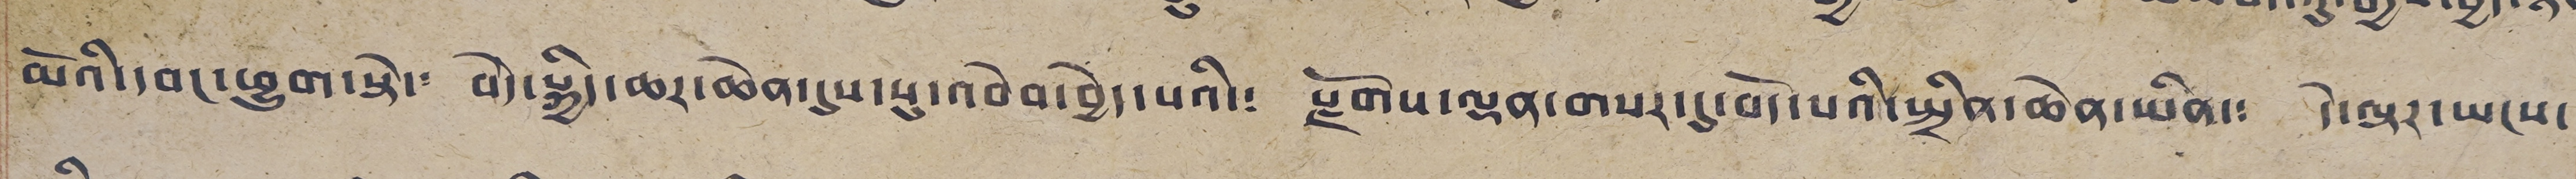མོའི་དབང་ཕྱུག་སྟེ་༴ བདེ་སྐྱིད་ཆར་ཆེན་དུས་སུ་འབེབ་བྱེད་པའི་༴ རྫོགས་ལྡན་གསར་དུ་བོད་པའི་སྤྱིན་ཆེན་ཡིན་༴ དེ་ལྟར་ཡངས་
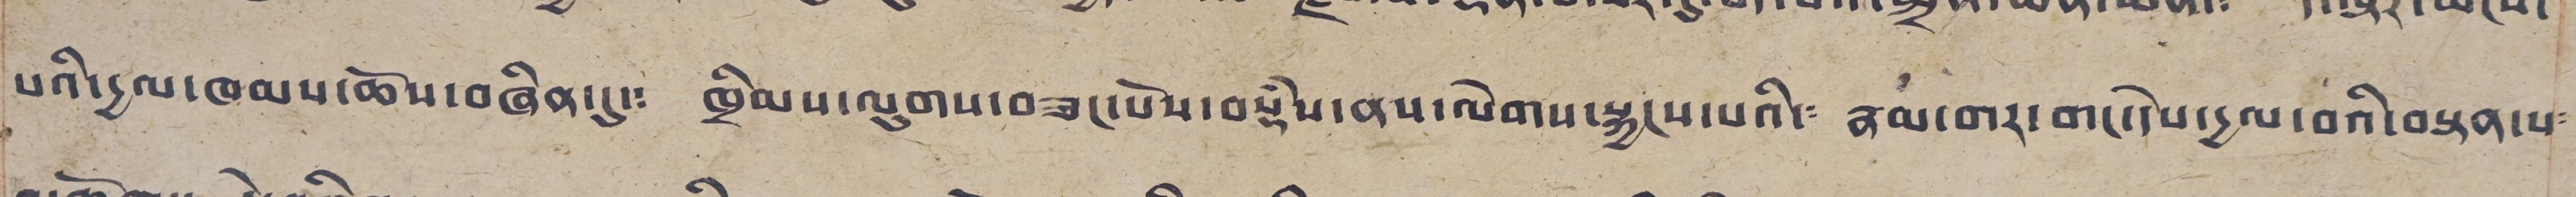པའི་དྱལ་ཁམས་ཆོས་བཞིན་དུ་༴ ཁྲིམས་ལུགས་བཟང་པོས་བསྡཾས་ནས་ལེགས་སྐྱངས་པའི་༴ རྣམ་གར་གང་དེས་དྱལ་བའི་བསྟན་པ༴
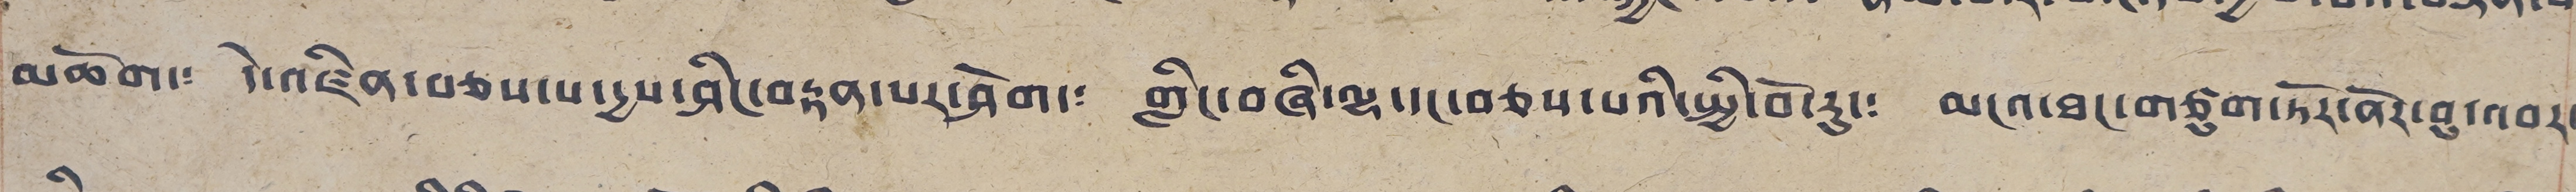མཆོག་༴ དེ་འཛིན་བཅས་པ་དྱས་ཤིང་བརྟན་པར་ཤོག་༴ གླིང་བཞི་ལྷ་དང་བཅས་པའི་སྤྱི་བོ་རུ་༴ མངའ་ཐང་གཙུག་ཏོར་ནོར་བུ་འབར་
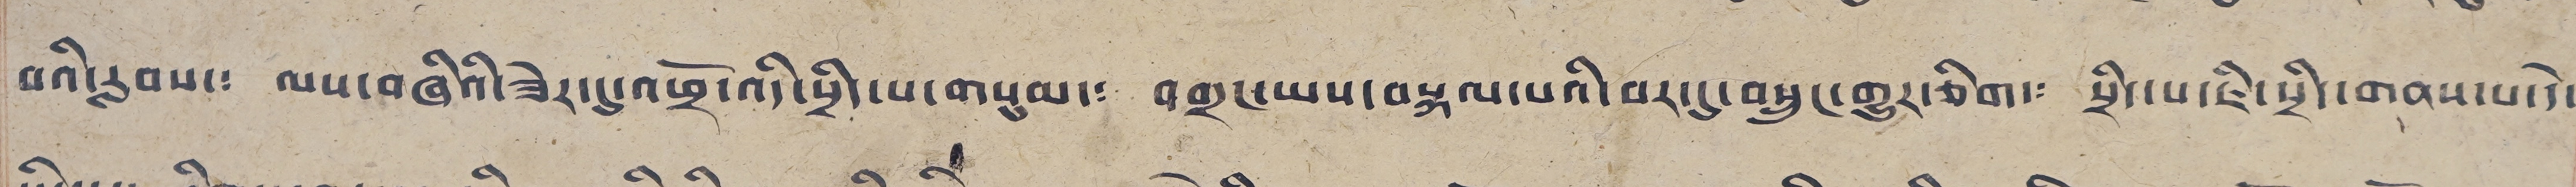བའི་རླབས་༴ ལས་བཞིའི་ཟེར་དུ་འཕྲོ་འདི་སྲིད་པ་གསུམ་༴ བགྲང་ཡས་བསྐལ་པའི་བར་དུ་བསྲུང་གྱུར་ཅིག་༴ སྲིད་པ་ཇི་སྲིད་གནས་པ་དེ་
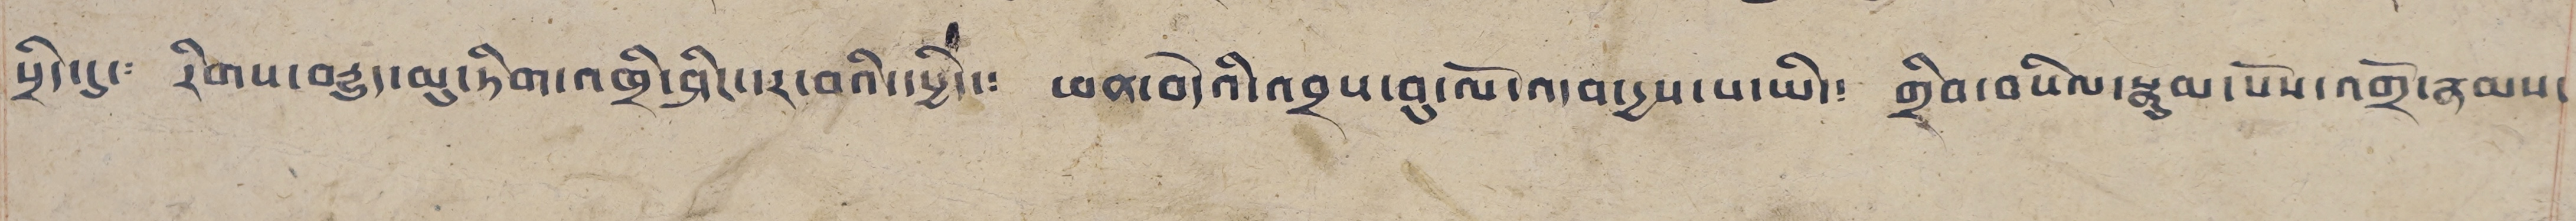སྲིད་དུ་༴ རིགས་བརྒྱུད་མུ་ཏིག་འཁྲི་ཤིང་ར་བའི་དཔྱིད་༴ ཕན་བདེའི་འབྲས་བུ་ལོ་འདབ་དྱས་པ་ཡི་༴ གྲིབ་བསིལ་སྣུམ་པོས་འགྲོ་རྣམས་
